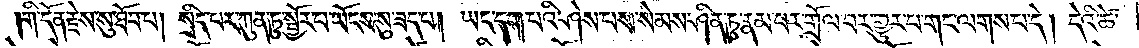གི་དོན་རྗེས་སུ་ཐོབ་པ། སྲིད་པར་ཀུན་ཏུ་སྦྱོར་བ་ཡོངས་སུ་ཟད་པ། ཡང་དག་པའི་ཤེས་པས་སེམས་ཤིན་ཏུ་རྣམ་པར་གྲོལ་བར་གྱུར་པ་གང་ལགས་པ་དེ། དེའི་ཚེ་
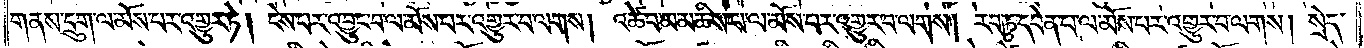གནས་དྲུག་ལ་མོས་པར་འགྱུར་ཏེ། ངེས་པར་འབྱུང་བ་ལ་མོས་པར་འགྱུར་བ་ལགས། འཚེ་བ་མ་མཆིས་པ་ལ་མོས་པར་འགྱུར་བ་ལགས། རབ་ཏུ་དབེན་པ་ལ་མོས་པར་འགྱུར་བ་ལགས། སྲེད་
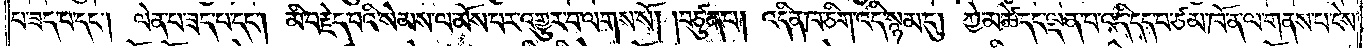པ་ཟད་པ་དང༌། ལེན་པ་ཟད་པ་དང༌། མི་བརྗེད་པའི་སེམས་ལ་མོས་པར་འགྱུར་བ་ལགས་སོ། །བཙུན་པ། འདི་ན་ཁ་ཅིག་འདི་སྙམ་དུ། ཀྱེ་མ་ཚེ་དང་ལྡན་པ་འདི་དད་པ་ཙམ་ཁོ་ན་ལ་གནས་པ་ངེས་
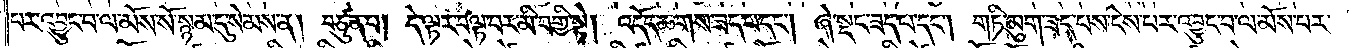པར་འབྱུང་བ་ལ་མོས་སོ་སྙམ་དུ་སེམས་ན། བཙུན་པ། དེ་ལྟར་བལྟ་བར་མི་བགྱི་སྟེ། འདོད་ཆགས་ཟད་པ་དང༌། ཞེ་སྡང་ཟད་པ་དང༌། གཏི་མུག་ཟད་པས་ངེས་པར་འབྱུང་བ་ལ་མོས་པར་
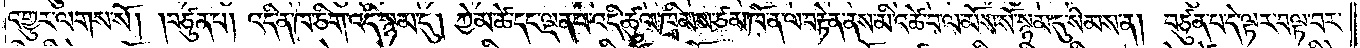འགྱུར་ལགས་སོ། །བཙུན་པ། འདི་ན་ཁ་ཅིག་འདི་སྙམ་དུ། ཀྱེ་མ་ཚེ་དང་ལྡན་པ་འདི་ཚུལ་ཁྲིམས་ཙམ་ཁོ་ན་ལ་བརྟེན་ནས་མི་འཚེ་བ་ལ་མོས་སོ་སྙམ་དུ་སེམས་ན། བཙུན་པ་དེ་ལྟར་བལྟ་བར་
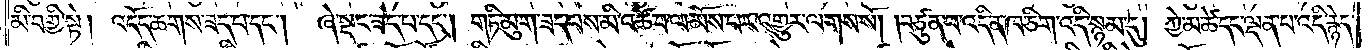མི་བགྱི་སྟེ། འདོད་ཆགས་ཟད་པ་དང༌། ཞེ་སྡང་ཟད་པ་དང༌། གཏི་མུག་ཟད་པས་མི་འཚེ་བ་ལ་མོས་པར་འགྱུར་ལགས་སོ། །བཙུན་པ་འདི་ན་ཁ་ཅིག་འདི་སྙམ་དུ། ཀྱེ་མ་ཚེ་དང་ལྡན་པ་འདི་རྙེད་
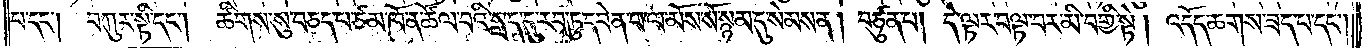པ་དང༌། བཀུར་སྟི་དང༌།   ཚིགས་སུ་བཅད་པ་ཙམ་ཁོ་ན་ཚོལ་བའི་སླད་དུ་རབ་ཏུ་དབེན་པ་ལ་མོས་སོ་སྙམ་དུ་སེམས་ན། བཙུན་པ། དེ་ལྟར་བལྟ་བར་མི་བགྱི་སྟེ། འདོད་ཆགས་ཟད་པ་དང་
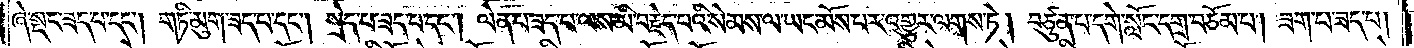ཞེ་སྡང་ཟད་པ་དང༌། གཏི་མུག་ཟད་པ་དང༌། སྲེད་པ་ཟད་པ་དང༌། ལེན་པ་ཟད་པ་ལས་མི་བརྗེད་པའི་སེམས་ལ་ཡང་མོས་པར་འགྱུར་ལགས་ཏེ། བཙུན་པ་དགེ་སློང་དགྲ་བཅོམ་པ། ཟག་པ་ཟད་པ།
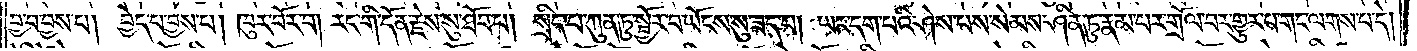བྱ་བ་བྱས་པ། བྱེད་པ་བྱས་པ། ཁུར་བོར་བ། རང་གི་དོན་རྗེས་སུ་ཐོབ་པ། སྲིད་པ་ཀུན་ཏུ་སྦྱོར་བ་ཡོངས་སུ་ཟད་པ། ཡང་དག་པའི་ཤེས་པས་སེམས་ཤིན་ཏུ་རྣམ་པར་གྲོལ་བར་གྱུར་པ་གང་ལགས་པ་དེ།
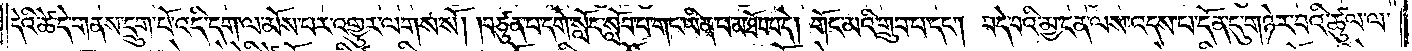དེའི་ཚེ་དེ་གནས་དྲུག་པོ་འདི་དག་ལ་མོས་པར་འགྱུར་ལགས་སོ། །བཙུན་པ་དགེ་སློང་སློབ་པ་གང་ཡིན་པ་མ་ཐོབ་པ་དེ། གོང་མའི་གྲུབ་པ་དང༌། བདེ་བའི་མྱ་ངན་ལས་འདས་པ་དོན་དུ་གཉེར་བའི་ཚུལ་ལ་
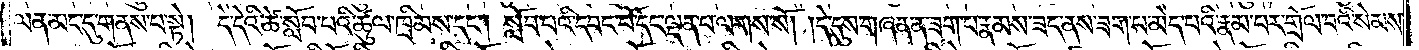ལན་མང་དུ་གནས་པ་སྟེ། དེ་དེའི་ཚེ་སློབ་པའི་ཚུལ་ཁྲིམས་དང༌། སློབ་པའི་དབང་པོ་དང་ལྡན་པ་ལགས་སོ། །དེ་དུས་གཞན་ན་ཟག་པ་རྣམས་ཟད་ནས་ཟག་པ་མེད་པའི་རྣམ་པར་གྲོལ་བའི་སེམས་
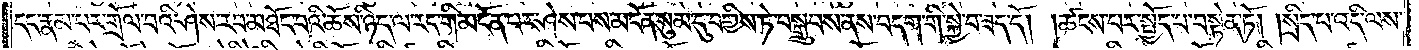དང་རྣམ་པར་གྲོལ་བའི་ཤེས་རབ་མཐོང་བའི་ཆོས་ཉིད་ལ་རང་གི་མངོན་པར་ཤེས་པས་མངོན་སུམ་དུ་བགྱིས་ཏེ་བསྒྲུབས་ནས་བདག་གི་སྐྱེ་བ་ཟད་དོ། །ཚངས་པར་སྤྱོད་པ་བསྟེན་ཏོ། །སྲིད་པ་འདི་ལས་
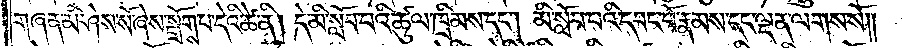གཞན་མི་ཤེས་སོ་ཞེས་སྒྲོགས་པ་དེའི་ཚེ་ནི། དེ་མི་སློབ་པའི་ཚུལ་ཁྲིམས་དང༌། མི་སློབ་པའི་དབང་པོ་རྣམས་དང་ལྡན་ལགས་སོ༎
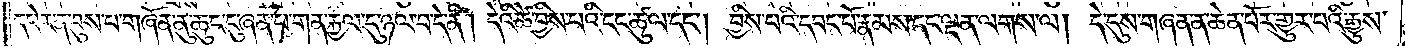དཔེར་ན་བུས་པ་གཞོན་ནུ་ཆུང་ངུ་ཞན་པ་གན་རྐྱལ་དུ་ཉལ་བ་དེ་ནི། དེའི་ཚེ་བྱིས་པའི་ངང་ཚུལ་དང༌། བྱིས་པའི་དབང་པོ་རྣམས་དང་ལྡན་ལགས་ལ། དེ་དུས་གཞན་ན་ཆེན་པོར་གྱུར་པའི་རྒྱུས་
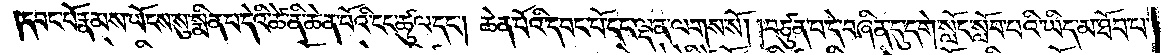དབང་པོ་རྣམས་ཡོངས་སུ་སྨིན་པ་དེའི་ཚེ་ནི་ཆེན་པོའི་ངང་ཚུལ་དང༌། ཆེན་པོའི་དབང་པོ་དང་ལྡན་ལགས་སོ། །བཙུན་པ་དེ་བཞིན་དུ་དགེ་སློང་སློབ་པའི་ཡིད་མ་ཐོབ་པ་
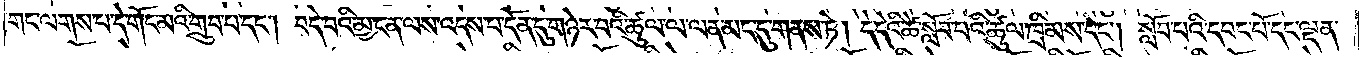གང་ལགས་པ་དེ་གོང་མའི་གྲུབ་པ་དང༌། བདེ་བའི་མྱ་ངན་ལས་འདས་པ་དོན་དུ་གཉེར་བའི་ཚུལ་ལ་ལན་མང་དུ་གནས་ཏེ། དེ་དེའི་ཚེ་སློབ་པའི་ཚུལ་ཁྲིམས་དང༌། སློབ་པའི་དབང་པོ་དང་ལྡན་
